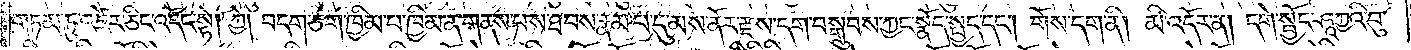གཏམ་ཏུ་འཛེར་ཅིང་འདོང་སྟེ། ཀྱེ། བདག་ཅག་ཁྱིམ་པ་ཁྱིམ་ན་གནས་པས་ཐབས་རྣམ་པ་དུ་མས་ནོར་རྫས་དག་བསྒྲུབས་ཀྱང་སྣོད་སྤྱད་དང༌། གོས་དག་ནི། མི་འདོར་ན། དགེ་སྦྱོང་ཤཱཀྱའི་བུ་
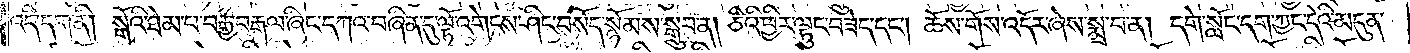འདི་དག་ནི། སྒོའི་ཐེམ་པ་བརྒྱ་བརྒལ་ཞིང་དཀའ་བཞིན་དུ་ལྟོ་འགེངས་ཤིང་བསོད་སྙོམས་སྒྲུབ་ན། ཅིའི་ཕྱིར་ལྷུང་བཟེད་དང༌། ཆོས་གོས་འདོར་ཞེས་སྨྲ་བ་ན། དགེ་སློང་དག་ཀྱང་དེའི་མདུན་
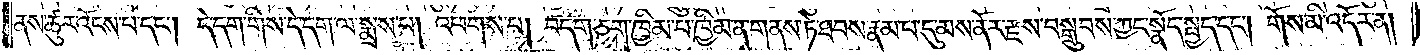ནས་ཚུར་འོངས་པ་དང༌། དེ་དག་གིས་དེ་དག་ལ་སྨྲས་པ། འཕགས་པ། བདག་ཅག་ཁྱིམ་པ་ཁྱིམ་ན་གནས་ཏེ་ཐབས་རྣམ་པ་དུ་མས་ནོར་རྫས་བསྒྲུབས་ཀྱང་སྣོད་སྤྱད་དང༌། གོས་མི་འདོར་ན།
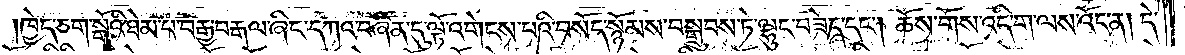ཁྱེད་ཅག་སྒོའི་ཐེམ་པ་བརྒྱ་བརྒལ་ཞིང་དཀའ་བཞིན་དུ་ལྟོ་འགེངས་པའི་བསོད་སྙོམས་བསྒྲུབས་ཏེ་ལྷུང་བཟེད་དང༌། ཆོས་གོས་འདི་ག་ལས་འོང་ན། དེ་
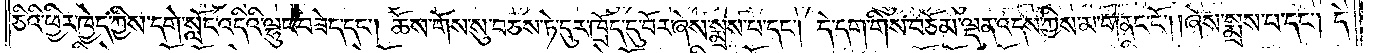ཅིའི་ཕྱིར་ཁྱེད་ཀྱིས་དགེ་སློང་འདིའི་ལྷུང་བཟེད་དང༌། ཆོས་གོས་སུ་བཅས་ཏེ་དུར་ཁྲོད་དུ་བོར་ཞེས་སྨྲས་པ་དང༌། དེ་དག་གིས་བཅོམ་ལྡན་འདས་ཀྱིས་མ་གནང་ངོ༌། །ཞེས་སྨྲས་པ་དང༌། དེ་
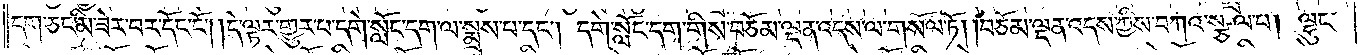དག་ཅང་མི་ཟེར་བར་དོང་ངོ༌། །དེ་ལྟར་གྱུར་པ་དགེ་སློང་དག་ལ་སྨྲས་པ་དང༌། དགེ་སློང་དག་གིས་བཅོམ་ལྡན་འདས་ལ་གསོལ་ཏོ། །བཅོམ་ལྡན་འདས་ཀྱིས་བཀའ་སྩལ་པ། ལྷུང་
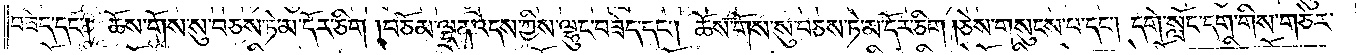བཟེད་དང༌། ཆོས་གོས་སུ་བཅས་ཏེ་མ་དོར་ཅིག །བཅོམ་ལྡན་འདས་ཀྱིས་ལྷུང་བཟེད་དང༌། ཆོས་གོས་སུ་བཅས་ཏེ་མ་དོར་ཅིག །ཅེས་གསུངས་པ་དང༌། དགེ་སློང་དག་གིས་གཅེར་
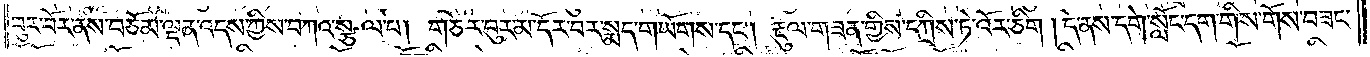བུར་བོར་ནས་བཅོམ་ལྡན་འདས་ཀྱིས་བཀའ་སྩལ་པ། གཅེར་བུར་མ་དོར་བར་སྨད་གཡོགས་དང༌། རྡུལ་གཟན་གྱིས་དཀྲིས་ཏེ་འོར་ཅིག །དེ་ནས་དགེ་སློང་དག་གིས་གོས་བཟང་
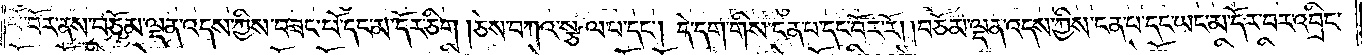པོ་བོར་ནས་བཅོམ་ལྡན་འདས་ཀྱིས་བཟང་པོ་དང་མ་དོར་ཅིག །ཅེས་བཀའ་སྩལ་པ་དང༌། དེ་དག་གིས་ངན་པ་དང་པོར་རོ། །བཅོམ་ལྡན་འདས་ཀྱིས་ངན་པ་དང་ཡང་མ་དོར་བར་འབྲིང་
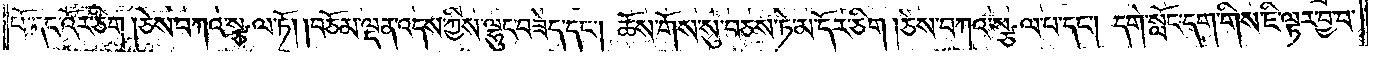པོ་དང་འོར་ཅིག །ཅེས་བཀའ་སྩལ་ཏོ། །བཅོམ་ལྡན་འདས་ཀྱིས་ལྷུང་བཟེད་དང༌། ཆོས་གོས་སུ་བཅས་ཏེ་མ་དོར་ཅིག །ཅེས་བཀའ་སྩལ་པ་དང༌། དགེ་སློང་དག་གིས་ཇི་ལྟར་བྱ་བ་
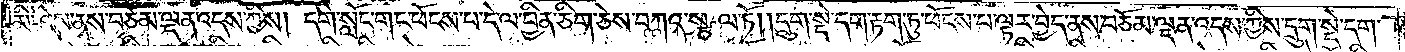མི་ཤེས་ནས་བཅོམ་ལྡན་འདས་ཀྱིས། དགེ་སློང་གང་ཕོངས་པ་དེ་ལ་བྱིན་ཅིག་ཅེས་བཀའ་སྩལ་ཏོ། །དྲུག་སྡེ་དག་རྟག་ཏུ་ཕོངས་པ་ལྟར་བྱེད་ན་བཅོམ་ལྡན་འདས་ཀྱིས་དྲུག་སྡེ་དག་
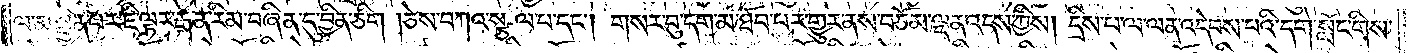ལ་མ་སྦྱིན་པར་ཇི་ལྟར་རྒན་རིམ་བཞིན་དུ་བྱིན་ཅིག། ཅེས་བཀའ་སྩལ་པ་དང༌། གསར་བུ་དག་མ་ཐོབ་པར་གྱུར་ནས་བཅོམ་ལྡན་འདས་ཀྱིས། དྲིས་པ་ལ་ལན་འདེབས་པའི་དགེ་སློང་གིས་
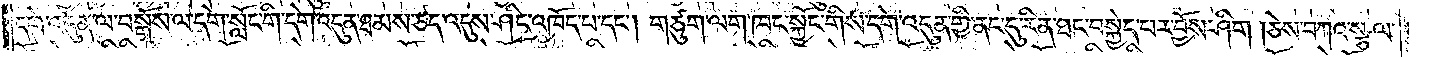དགེ་འདུན་ལ་བསྒོས་ལ་དགེ་སློང་གི་དགེ་འདུན་ཐམས་ཅད་འདུས་ཤིང་འཁོད་པ་དང༌། གཙུག་ལག་ཁང་སྐྱོང་གིས་དགེ་འདུན་གྱི་ནང་དུ་རིན་ཐང་བསྐྱེད་པར་བྱོས་ཤིག། ཅེས་བཀའ་སྩལ་
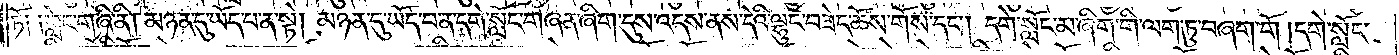ཏོ༑ ༑གླེང་གཞི་ནི། མཉན་དུ་ཡོད་པ་ན་སྟེ། མཉན་དུ་ཡོད་པ་ན་དགེ་སློང་གཞན་ཞིག་དུས་འདས་ནས་དེའི་ལྷུང་བཟེད་ཆོས་གོས་དང༌། དགེ་སློང་མ་ཞིག་གི་ལག་ཏུ་བཞག་གོ །དགེ་སློང་
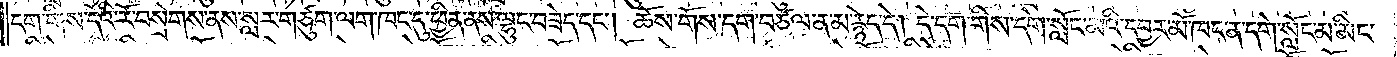དག་གིས་དེའི་རོ་བསྲེགས་ནས་སླར་གཙུག་ལག་ཁང་དུ་ཕྱིན་ནས་ལྷུང་བཟེད་དང༌། ཆོས་གོས་དག་བཙལ་ན་མ་རྙེད་དེ། དེ་དག་གིས་དགེ་སློང་མའི་དབྱར་མོ་ཁང་ན་དགེ་སློང་མ་མིང་
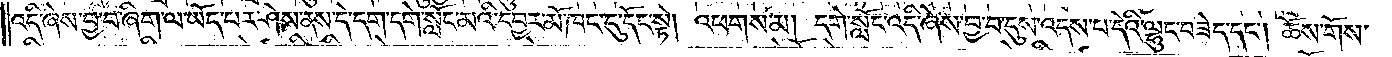འདི་ཞེས་བྱ་བ་ཞིག་ལ་ཡོད་པར་ཤེས་ནས་དེ་དག་དགེ་སློང་མའི་དབྱར་མོ་ཁང་དུ་དོང་སྟེ། འཕགས་མ། དགེ་སློང་འདི་ཞེས་བྱ་བ་དུས་འདས་པ་དེའི་ལྷུང་བཟེད་དང༌། ཆོས་གོས་
